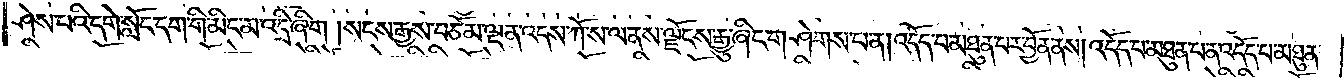ཤེས་པའི་དགེ་སློང་དག་གི་མིང་མ་འདྲི་ཞིག །སངས་རྒྱས་བཅོམ་ལྡན་འདས་ཀོ་ས་ལ་ནས་ལྗོངས་རྒྱུ་ཞིང་གཤེགས་པ་ན། འདོད་པ་མཐུན་པར་བྱོན་ནས། འདོད་པ་མཐུན་པ་ན་འདོད་པ་མཐུན་
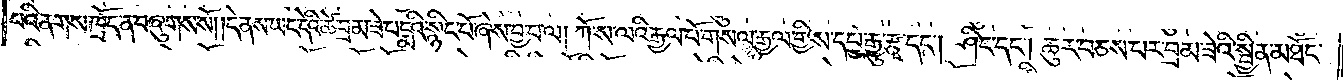པའི་ནགས་ཁྲོད་ན་བཞུགས་སོ། །དེ་ནས་ཡང་དེའི་ཚེ་བྲམ་ཟེ་པདྨའི་སྙིང་པོ་ཞེས་བྱ་བ་ལ། ཀོ་ས་ལའི་རྒྱལ་པོ་གསལ་རྒྱལ་གྱིས་དཔྱ་རྒྱུ་རྩྭ་དང༌། ཤིང་དང༌། ཆུར་བཅས་པར་བྲམ་ཟེའི་སྦྱིན་མཐོང་
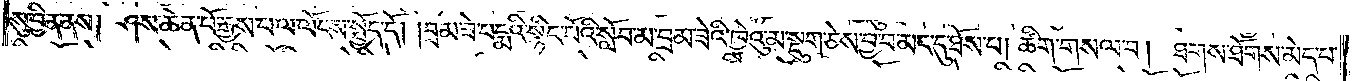སུ་བྱིན་ནས། ཤས་ཆེན་པོ་རྒྱས་པ་ལ་ལོངས་སྤྱོད་དོ། །བྲམ་ཟེ་པདྨའི་སྙིང་པོའི་སློབ་མ་བྲམ་ཟེའི་ཁྱེའུ་མ་སྡུག་ཅེས་བྱ་བ་མང་དུ་ཐོས་པ། ཚིག་གསལ་བ། ཐགས་ཐོགས་མེད་པ་
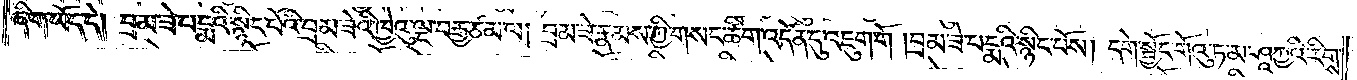ཞིག་ཡོད་དེ། བྲམ་ཟེ་པདྨའི་སྙིང་པོའི་བྲམ་ཟེའི་ཁྱེའུ་ལྔ་བརྒྱ་ཙམ་ལ། བྲམ་ཟེ་རྣམས་ཀྱི་གསང་ཚིག་འདོན་དུ་འཇུག་གོ །བྲམ་ཟེ་པདྨའི་སྙིང་པོས། དགེ་སློང་གོའུ་ཏ་མ་ཤཱཀྱའི་རིགས་
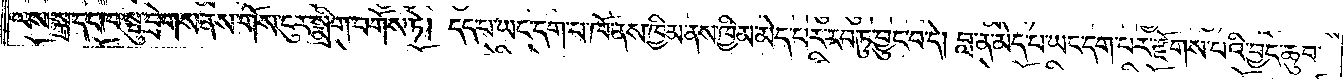ལས་སྐྲ་དང་ཁ་སྤུ་བྲེགས་ནས་གོས་ངུར་སྨྲིག་བགོས་ཏེ། དད་པ་ཡང་དག་པ་ཁོ་ནས་ཁྱིམ་ནས་ཁྱིམ་མེད་པར་རབ་ཏུ་བྱུང་བ་དེ། བླ་ན་མེད་པ་ཡང་དག་པར་རྫོགས་པའི་བྱང་ཆུབ་
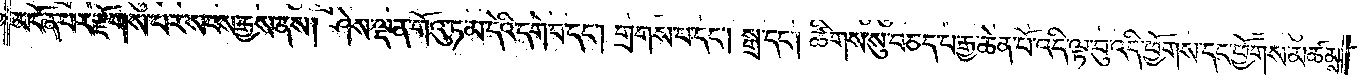མངོན་པར་རྫོགས་པར་སངས་རྒྱས་ནས། ཤེས་ལྡན་གོའུ་ཏ་མ་དེའི་དགེ་བ་དང༌། གྲགས་པ་དང༌། སྒྲ་དང༌། ཚིགས་སུ་བཅད་པ་རྒྱ་ཆེན་པོ་འདི་ལྟ་བུ་འདི་ཕྱོགས་དང་ཕྱོགས་མཚམས་
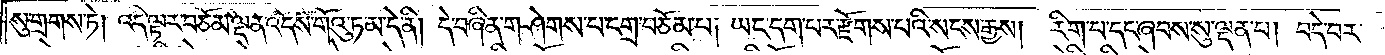སུ་གྲགས་ཏེ། འདི་ལྟར་བཅོམ་ལྡན་འདས་གོའུ་ཏ་མ་དེ་ནི། དེ་བཞིན་གཤེགས་པ་དགྲ་བཅོམ་པ། ཡང་དག་པར་རྫོགས་པའི་སངས་རྒྱས། རིག་པ་དང་ཞབས་སུ་ལྡན་པ། བདེ་བར་
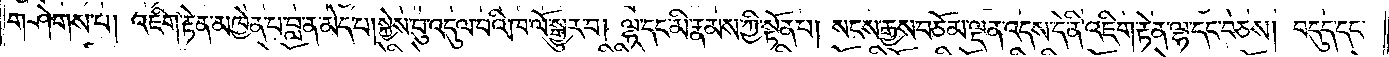གཤེགས་པ། འཇིག་རྟེན་མཁྱེན་པ་བླ་ན་མེད་པ། སྐྱེས་བུ་འདུལ་བའི་ཁ་ལོ་སྒྱུར་བ། ལྷ་དང་མི་རྣམས་ཀྱི་སྟོན་པ། སངས་རྒྱས་བཅོམ་ལྡན་འདས་དེ་ནི་འཇིག་རྟེན་ལྷ་དང་བཅས། བདུད་དང་
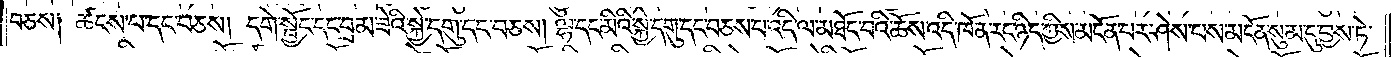བཅས༑ ཚངས་པ་དང་བཅས། དགེ་སྦྱོང་དང་བྲམ་ཟེའི་སྐྱེ་དགུ་དང་བཅས། ལྷ་དང་མིའི་སྐྱེ་དགུ་དང་བཅས་པ་འདི་ལ་མཐོང་བའི་ཆོས་འདི་ཁོན་རང་ཉིད་ཀྱིས་མངོན་པར་ཤེས་པས་མངོན་སུམ་དུ་བྱས་ཏེ་
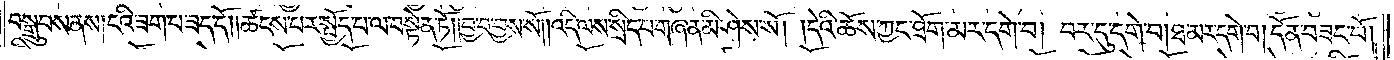བསྒྲུབས་ནས། ངའི་ཟག་པ་ཟད་དོ། །ཚངས་པར་སྤྱོད་པ་ལ་བསྟེན་ཏོ། །བྱ་བ་བྱས་སོ། །འདི་ལས་སྲིད་པ་གཞན་མི་ཤེས་སོ། །དེའི་ཆོས་ཀྱང་ཐོག་མར་དགེ་བ། བར་དུ་དགེ་བ། ཐ་མར་དགེ་བ། དོན་བཟང་པོ།
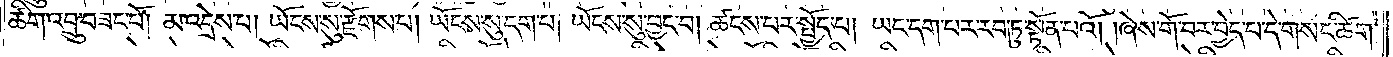ཚིག་འབྲུ་བཟང་པོ། མ་འདྲེས་པ། ཡོངས་སུ་རྫོགས་པ། ཡོངས་སུ་དག་པ། ཡོངས་སུ་བྱང་བ། ཚངས་པར་སྤྱོད་པ། ཡང་དག་པར་རབ་ཏུ་སྟོན་པའོ། །ཞེས་གོ་བར་བྱེད་པ་དེ་གསང་ཚིག་
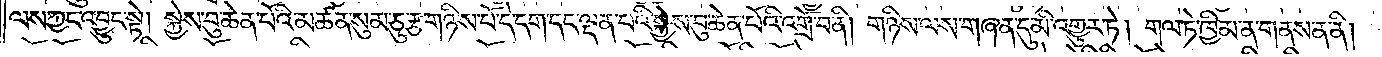ལས་ཀྱང་འབྱུང་སྟེ། སྐྱེས་བུ་ཆེན་པོའི་མཚན་སུམ་ཅུ་རྩ་གཉིས་པོ་དེ་དག་དང་ལྡན་པའི་སྐྱེས་བུ་ཆེན་པོའི་འགྲོ་བ་ནི། གཉིས་ལས་གཞན་དུ་མི་འགྱུར་ཏེ། གལ་ཏེ་ཁྱིམ་ན་གནས་ན་ནི།
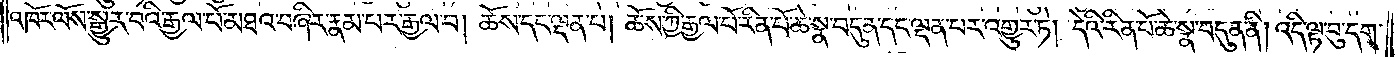འཁོར་ལོས་སྒྱུར་བའི་རྒྱལ་པོ་མཐའ་བཞིར་རྣམ་པར་རྒྱལ་བ། ཆོས་དང་ལྡན་པ། ཆོས་ཀྱི་རྒྱལ་པོ་རིན་པོ་ཆེ་སྣ་བདུན་དང་ལྡན་པར་འགྱུར་ཏེ། དེའི་རིན་པོ་ཆེ་སྣ་བདུན་ནི། འདི་ལྟ་བུ་དག་
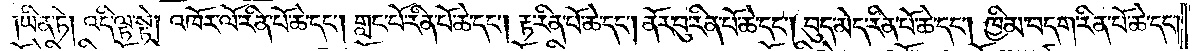ཡིན་ཏེ། འདི་ལྟ་སྟེ། འཁོར་ལོ་རིན་པོ་ཆེ་དང༌། གླང་པོ་ཆེན་པོ་ཆེ་དང༌། རྟ་རིན་པོ་ཆེ་དང༌། ནོར་བུ་རིན་པོ་ཆེ་དང༌། བུད་མེད་རིན་པོ་ཆེ་དང༌། ཁྱིམ་བདག་རིན་པོ་ཆེ་དང༌།
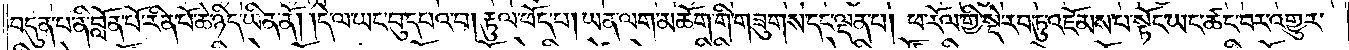བདུན་པ་ནི་བློན་པོ་རིན་པོ་ཆེ་ཉིད་ཡིན་ནོ། །དེ་ལ་ཡང་བུ་དཔའ་བ། རྟུལ་ཕོད་པ། ཡན་ལག་མཆོག་གི་གཟུགས་དང་ལྡན་པ། ཕ་རོལ་གྱི་སྡེ་རབ་ཏུ་འཇོམས་པ་སྟོང་ཡང་ཚང་བར་འགྱུར་
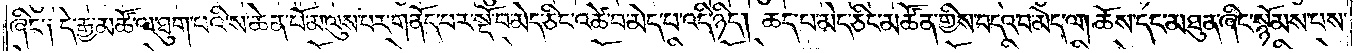ཞིང་༑ དེ་རྒྱ་མཚོ་ལ་ཐུག་པའི་ས་ཆེན་པོ་མ་ལུས་པར་གནོད་པར་སྡོ་བ་མེད་ཅིང་འཚེ་བ་མེད་པ་འདི་ཉིད། ཆད་པ་མེད་ཅིང་མཚོན་གྱིས་བདའ་བ་མེད་ལ། ཆོས་དང་མཐུན་ཞིང་སྙོམས་པས་
